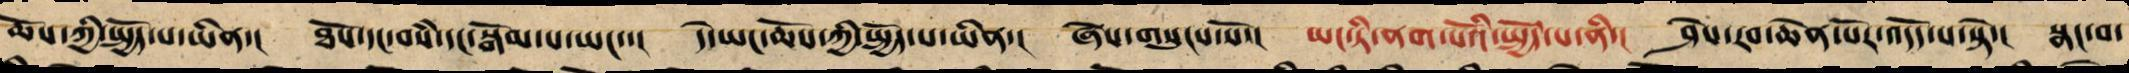ཆོས་ཀྱི་སྤྱོད་པ་ཡིན་། ཐོས་དང་བསཾ་དང་བསྒོམ་པ་ཡང་་། དེ་ཡང་ཆོས་ཀྱི་སྤྱོད་པ་ཡིན་། ཞེས་གསུངས་སོ་། ཡང་ཏི་ནག་པོའི་སྤྱོད་པ་ནི་། ཤེས་རབ་ཆེན་པོར་འདོད་པ་སྟེ་། སྣང་བ་
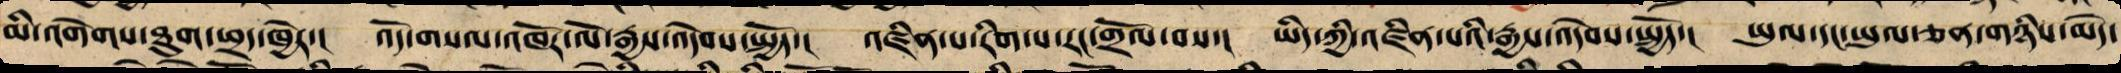མི་འགེགས་ཐུག་ཕྲད་ཁྱེར་། འོད་གསལ་འཁོར་ལོ་རྒྱས་འདེབས་སྤྱོད་། འཛིན་པ་རིག་པ་རང་གྲོལ་བས་། ཡིད་ཀྱི་འཛིན་པའི་རྒྱས་འདེབས་སྤྱོད་། ཡུལ་དང་ཡུལ་ཅན་གཉིས་མེད་
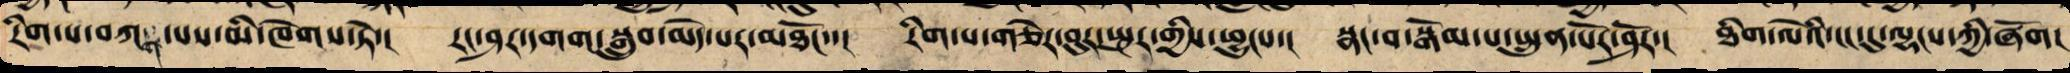རིག་པ་བཀག་པས་མི་ཁེགས་ཏེ་། རང་ཤར་དགག་བསྒྲུབ་མེད་པར་མཐོང་། རིག་པ་གཅེར་བུར་སྤུར་གྱིས་ཕྱུངས་། སྣང་བ་བསྒོམ་པ་སྤུན་པོར་ཤོར་། ཐིག་ལེའི་ངང་དུ་ལྷངས་ཀྱིས་ཞོག།
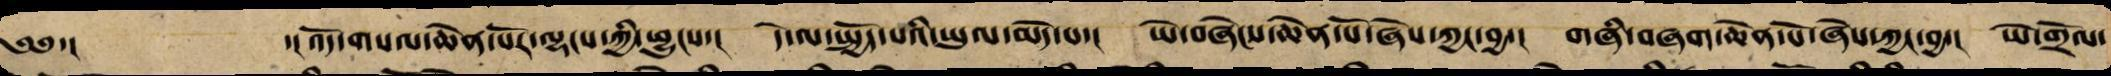༄༅་། ་།འོད་གསལ་ཆེན་པོར་ལྷངས་ཀྱིས་ཕྱུངས་། དེ་ལ་སྤྱད་པའི་ཡུལ་མེད་པ་། ཡེ་བཞེངས་ཆེན་པོ་ཞེས་ཀྱང་བྱ་། གཞི་བཞག་ཆེན་པོ་ཞེས་ཀྱང་བྱ་། ཡེ་གྲོལ་
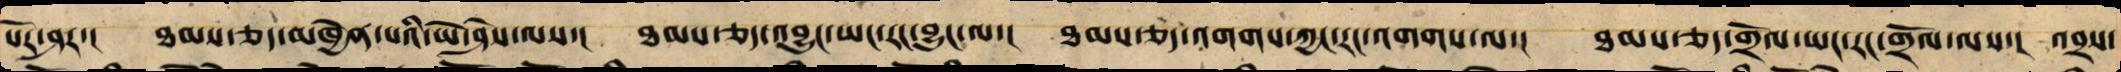པོར་ཤར་། ཐམས་ཅད་མཁྱེན་པའི་ཡེ་ཤེས་ལས་། ཐམས་ཅད་འབྱུང་ཡང་རང་བྱུང་ལ་། ཐམས་ཅད་འགགས་ཀྱང་རང་འགགས་ལ་། ཐམས་ཅད་གྲོལ་ཡང་རང་གྲོལ་ལས་། འབྲས་
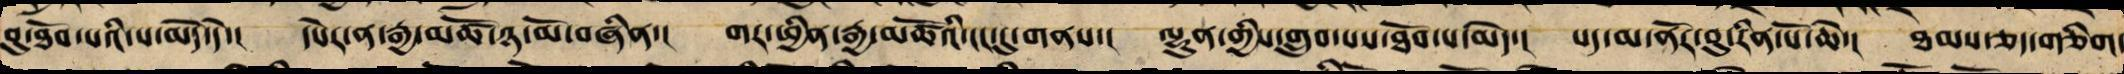བུ་ཐོབ་པའི་ས་མེད་དེ་། དཔེར་ན་རྒྱ་མཚོའི་ཉ་མོ་བཞིན་། གར་ཕྱིན་རྒྱ་མཚོའི་ངང་དུ་གནས་། ལྷུན་གྱིས་གྲུབ་པས་ཐོབ་པ་མེད་། པད་མ་ནོར་བུ་རིན་པོ་ཆེ་། ཐམས་ཅད་གཅིག་
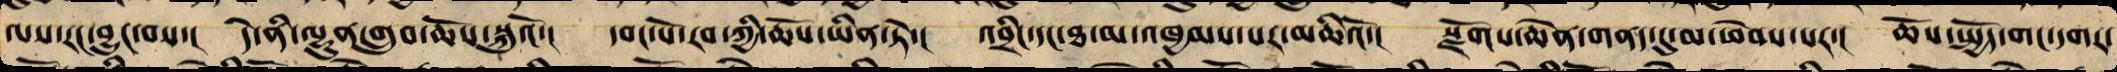ལས་རང་བྱུང་བས་། དེ་ནི་ལྷུན་གྲུབ་ཆོས་སྐུའོ་། དབང་པོ་རབ་ཀྱི་ཆོས་ཡིན་ཏེ་། འབྲིང་དང་ཐ་མ་འཁྱམས་པར་མཆིའོ་། སྫོགས་ཆེན་གནད་དུ་མ་ཕེབས་པར་། ཆོས་སྤྱོད་གང་དགར་
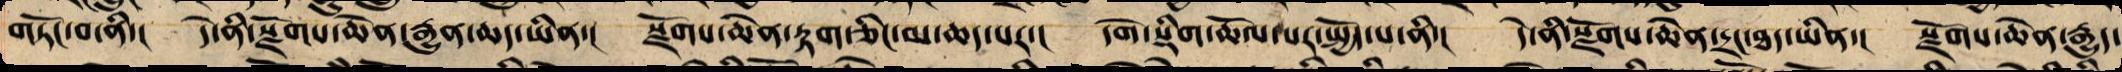བཏང་བ་ནི་། དེ་ནི་སྫོགས་ཆེན་རྒྱུན་ཆད་ཡིན་། སྫོགས་ཆེན་རྟག་ཅིང་མ་ཆད་པར་། དགེ་སྡིག་ཆོལ་བར་སྤྱོད་པ་ནི་། དེ་ནི་སྫོགས་ཆེན་དྲང་ཐད་ཡིན་། སྫོགས་ཆེན་རྒྱུད་
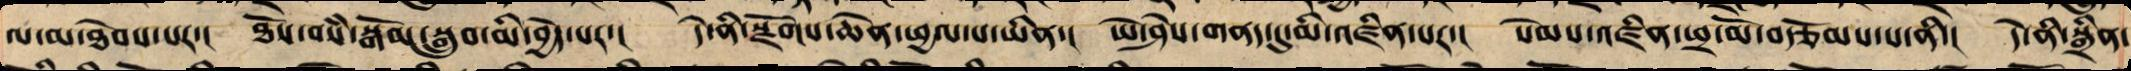ལ་མ་ཐེབས་པར་། ཐོས་བསཾ་བསྒོམ་སྒྲུབ་མི་བྱེད་པ་། དེ་ནི་སྫོགས་ཆེན་ཕྱལ་པ་ཡིན་། ཡེ་ཤེས་གནད་དུ་མི་འཛིན་པར་། སེམས་འཛིན་ཕྲ་མོ་བརྩམ་པ་ནི་། དེ་ནི་སྒྲོན་
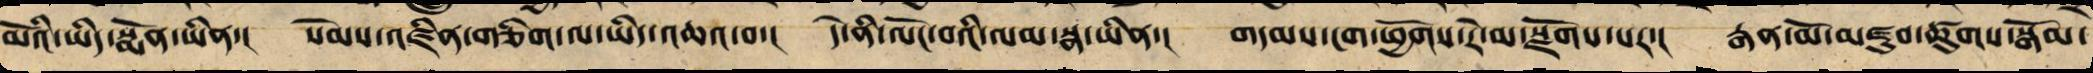མོའི་ཡིད་སྨོན་ཡིན་། སེམས་འཛིན་གཅིག་ལ་ཡིད་འཆའ་བ་། དེ་ནི་ལོང་བའི་ལམ་སྣ་ཡིན་། གདམས་ངག་ཕྱོགས་རེ་མ་སྫོགས་པར་། རྒན་མོ་མཛུབ་ཚུགས་སྒོམ་
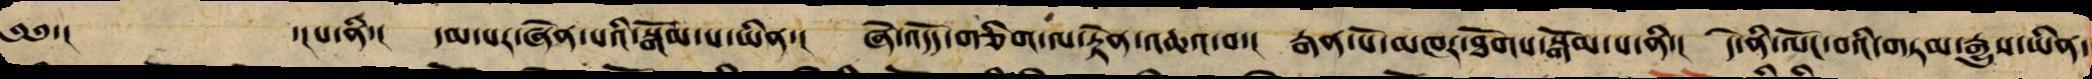༄༅་། ་།པ་ནི་། དམ་པར་ཞེན་པའི་སྒོམ་པ་ཡིན་། ཞེ་འདོད་གཅིག་ལ་རྟེན་འཆའ་བ་། རྒད་པོ་མཁར་ཐོགས་སྒོམ་པ་ནི་། དེ་ནི་ལོང་བའི་ལམ་རྒྱུས་ཡིན་
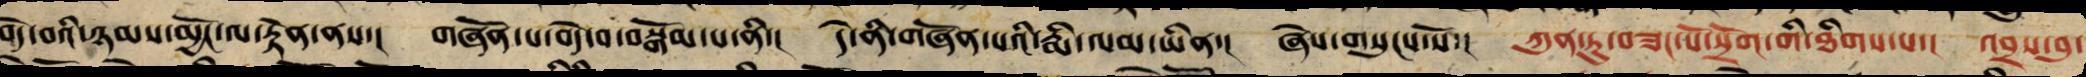བདེ་བའི་ཉམས་མྱོང་ལ་རྟེན་ནས་། གཞོན་པ་བདེ་བ་བསྒོམ་པ་ནི་། དེ་ནི་གཞོན་པའི་རྨི་ལམ་ཡིན་། ཞེས་གསུངས་སོ་། ཀུན་ཏུ་བཟང་པོ་སྲོག་གི་ཐིགས་པ་། འབྲས་བུ་
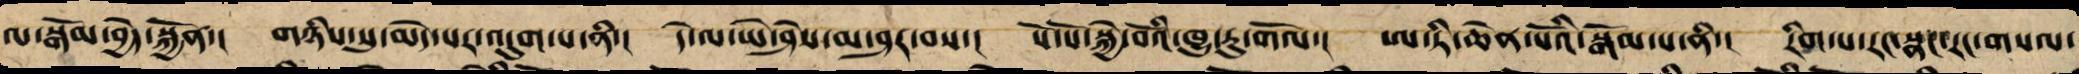ལ་སྒོམ་མེད་སྐྱོན་། གཉིས་སུ་མེད་པར་འདུག་པ་ནི་། དེ་ལ་ཡེ་ཤེས་མ་ཤར་བས་། སོ་སོ་སྐྱེ་བོའི་ཁྱུ་རུ་གོལ་། ཨ་ཏི་ཆེན་པོའི་སྒོམ་པ་ནི་། རིག་པ་རང་སྣང་རང་གསལ་
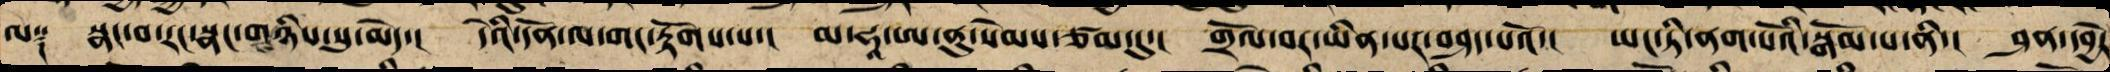ལ༑ སྣང་བ་རང་སྣང་གཉིས་སུ་མེད་། དེའི་་དོན་ལ་གང་རྟོག་པ་། མ་ཧཱ་ཨ་ནུ་སེམས་རྩལ་དུ་། འགྲོ་བ་ཡིན་པར་བཤད་པའོ་། ཡང་ཏི་ནག་པོའི་སྒོམ་པ་ནི་། ཤན་དབྱེར
